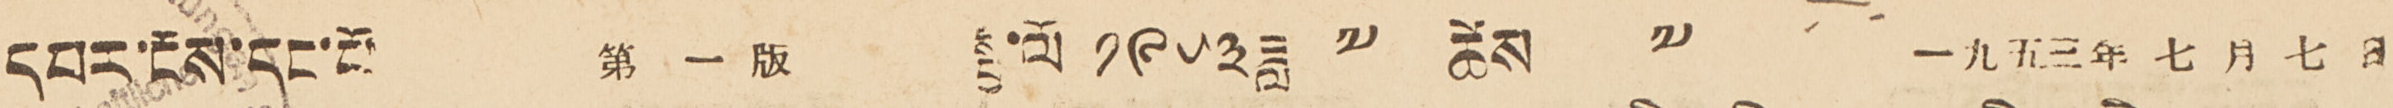དཔར་ངོས་དང་པོ 第 一 版 སྤྱི་ལོ ༡༩༥༣ ཟླ ༧ ཚེས ༧ 一九五三年七月七日
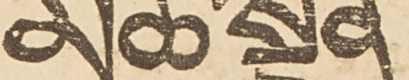མཚོ་སྔོན
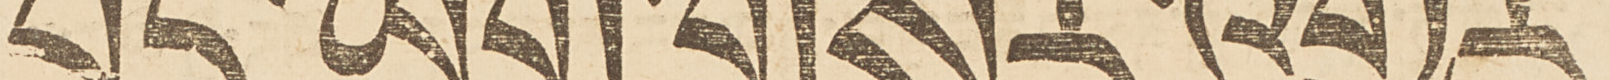བོད་ཡིག་གསར་འགྱུར
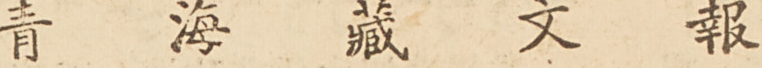青 海 藏 文 報
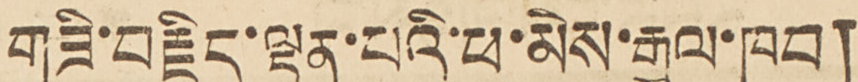གཟི་བརྗིད་ལྡན་པའི་ཕ་མེས་རྒྱལ་ཁབ།
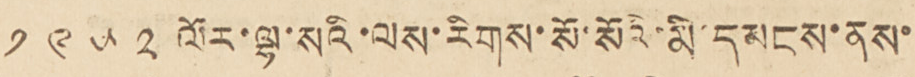༡ ༩ ༥ ༢ ལོར་ལྷ་སའི་ལས་རིགས་སོ་སོའི་མི་དམངས་ནས་
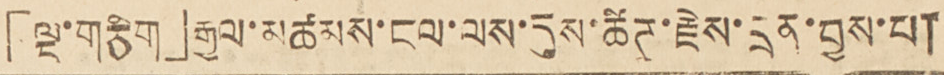「ལྔ་གཅིག」རྒྱལ་མཚམས་ངལ་ལས་དུས་ཚིཊ་རྗེས་དྲན་བྱས་པ།
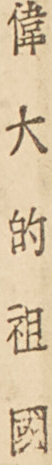偉 大 的 祖 國
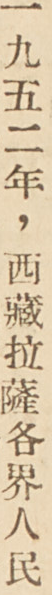一九五二年，西藏拉薩各界人民
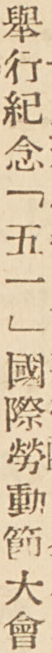舉行紀念「五一」國際勞動節大會
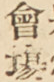會塲
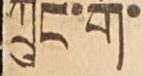ཀྲུང་གོ་
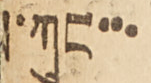པ་ཀུང་་་
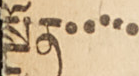སྔོན་་་་་
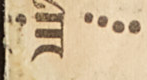་ཟི་་་་
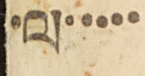་ལ་་་་་
